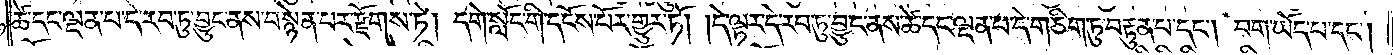ཚེ་དང་ལྡན་པ་དེ་རབ་ཏུ་བྱུང་ནས་བསྙེན་པར་རྫོགས་ཏེ། དགེ་སློང་གི་དངོས་པོར་གྱུར་ཏོ། །དེ་ལྟར་དེ་རབ་ཏུ་བྱུང་ནས་ཚེ་དང་ལྡན་པ་དེ་གཅིག་ཏུ་བརྟུན་པ་དང༌། བག་ཡོད་པ་དང༌།
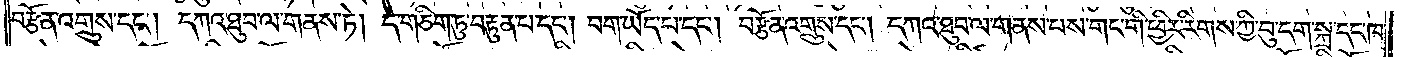བརྩོན་འགྲུས་དང༌། དཀའ་ཐུབ་ལ་གནས་ཏེ། དེ་གཅིག་ཏུ་བརྟུན་པ་དང༌། བག་ཡོད་པ་དང༌། བརྩོན་འགྲུས་དང༌། དཀའ་ཐུབ་ལ་གནས་པས་གང་གི་ཕྱིར་རིགས་ཀྱི་བུ་དག་སྐྲ་དང་ཁ་
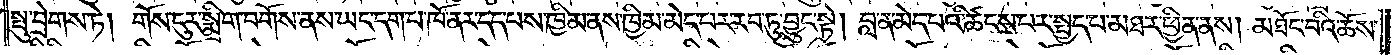སྤུ་བྲེགས་ཏེ། གོས་ངུར་སྨྲིག་བགོས་ནས་ཡང་དག་པ་ཁོ་ནར་དད་པས་ཁྱིམ་ནས་ཁྱིམ་མེད་པར་རབ་ཏུ་བྱུང་སྟེ། བླ་ན་མེད་པའི་ཚངས་པར་སྤྱད་པ་མཐར་ཕྱིན་ནས། མཐོང་བའི་ཆོས་
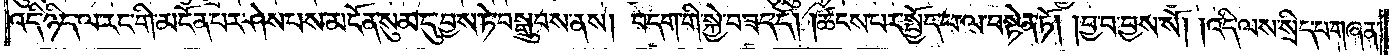འདི་ཉིད་ལ་རང་གི་མངོན་པར་ཤེས་པས་མངོན་སུམ་དུ་བྱས་ཏེ་བསྒྲུབས་ནས། བདག་གི་སྐྱེ་བ་ཟད་དོ། །ཚངས་པར་སྤྱོད་པ་ལ་བསྟེན་ཏོ། །བྱ་བ་བྱས་སོ། །འདི་ལས་སྲིད་པ་གཞན་
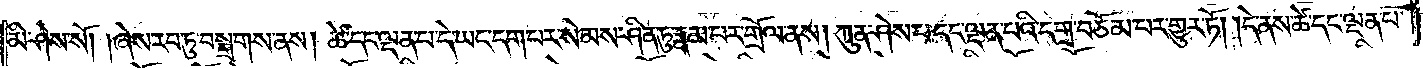མི་ཤེས་སོ། །ཞེས་རབ་ཏུ་བསྒྲགས་ནས། ཚེ་དང་ལྡན་པ་དེ་ཡང་དག་པར་སེམས་ཤིན་ཏུ་རྣམ་པར་གྲོལ་ནས། ཀུན་ཤེས་པ་དང་ལྡན་པའི་དགྲ་བཅོམ་པར་གྱུར་ཏོ། །དེ་ནས་ཚེ་དང་ལྡན་པ་
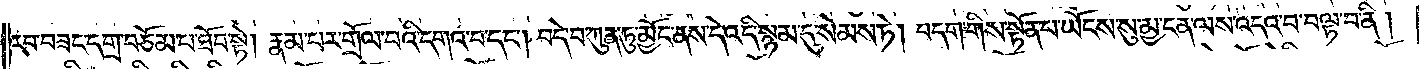རབ་བཟང་དགྲ་བཅོམ་པ་ཐོབ་སྟེ། རྣམ་པར་གྲོལ་བའི་དགའ་བ་དང༌། བདེ་བ་ཀུན་ཏུ་མྱོང་ནས་དེ་འདི་སྙམ་དུ་སེམས་ཏེ། བདག་གིས་སྟོན་པ་ཡོངས་སུ་མྱ་ངན་ལས་འདའ་བ་བལྟ་བ་ནི།
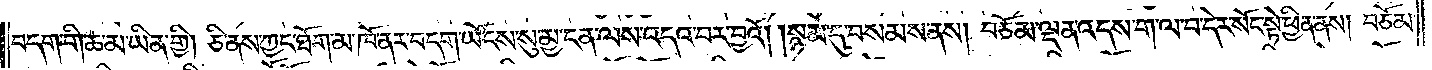བདག་གི་ཆ་མ་ཡིན་གྱི། ཅི་ནས་ཀྱང་ཐོག་མ་ཁོ་ནར་བདག་ཡོངས་སུ་མྱ་ངན་ལས་འདའ་བར་བྱའོ། །སྙམ་དུ་བསམས་ནས། བཅོམ་ལྡན་འདས་ག་ལ་བ་དེར་སོང་སྟེ་ཕྱིན་ནས། བཅོམ་
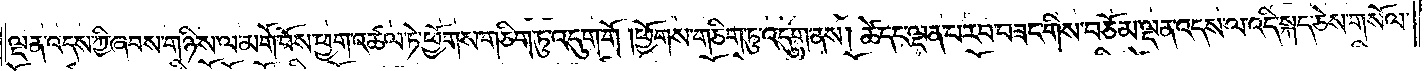ལྡན་འདས་ཀྱི་ཞབས་གཉིས་ལ་མགོ་བོས་ཕྱག་འཚལ་ཏེ་ཕྱོགས་གཅིག་ཏུ་འདུག་གོ །ཕྱོགས་གཅིག་ཏུ་འདུག་ནས། ཚེ་དང་ལྡན་པ་རབ་བཟང་གིས་བཅོམ་ལྡན་འདས་ལ་འདི་སྐད་ཅེས་གསོལ་
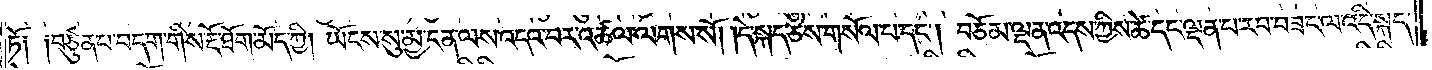ཏོ༑ ༑བཙུན་པ་བདག་གིས་རྔོ་ཐོག་མོད་ཀྱི། ཡོངས་སུ་མྱ་ངན་ལས་འདའ་བར་འཚལ་ལགས་སོ། །དེ་སྐད་ཅེས་གསོལ་པ་དང༌། བཅོམ་ལྡན་འདས་ཀྱིས་ཚེ་དང་ལྡན་པ་རབ་བཟང་ལ་འདི་སྐད་
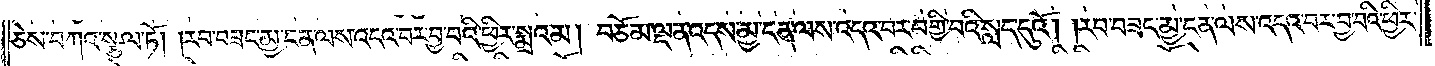ཅེས་བཀའ་སྩལ་ཏོ། །རབ་བཟང་མྱ་ངན་ལས་འདའ་བར་བྱ་བའི་ཕྱིར་སྨྲའམ། བཅོམ་ལྡན་འདས་མྱ་ངན་ལས་འདའ་བར་བགྱི་བའི་སླད་དུའོ། །རབ་བཟང་མྱ་ངན་ལས་འདའ་བར་བྱ་བའི་ཕྱིར་
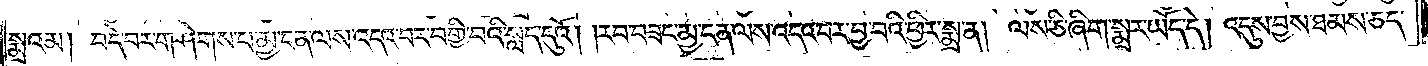སྨྲའམ། བདེ་བར་གཤེགས་པ་མྱ་ངན་ལས་འདའ་བར་བགྱི་བའི་སླད་དུའོ། །རབ་བཟང་མྱ་ངན་ལས་འདའ་བར་བྱ་བའི་ཕྱིར་སྨྲ་ན། ལས་ཅི་ཞིག་སྨྲར་ཡོད་དེ། འདུས་བྱས་ཐམས་ཅད་
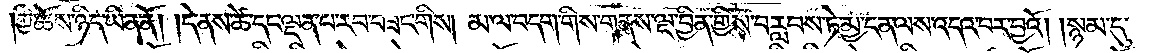ཀྱི་ཆོས་ཉིད་ཡིན་ནོ། །དེ་ནས་ཚེ་དང་ལྡན་པ་རབ་བཟང་གིས། མ་ལ་བདག་གིས་གནས་ལྔ་བྱིན་གྱིས་བརླབས་ཏེ་མྱ་ངན་ལས་འདའ་བར་བྱའོ། །སྙམ་དུ་
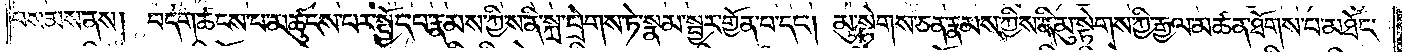བསམས་ནས། བདག་ཚངས་པ་མཚུངས་པར་སྤྱོད་པ་རྣམས་ཀྱིས་ནི་སྐྲ་བྲེགས་ཏེ་སྣམ་སྦྱར་གྱོན་པ་དང༌། མུ་སྟེགས་ཅན་རྣམས་ཀྱིས་ནི་མུ་སྟེགས་ཀྱི་རྒྱལ་མཚན་ཐོགས་པ་མཐོང་
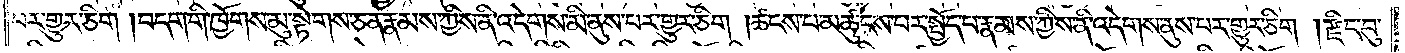བར་གྱུར་ཅིག །བདག་གི་ཁྱོགས་མུ་སྟེགས་ཅན་རྣམས་ཀྱིས་ནི་འདེགས་མི་ནུས་པར་གྱུར་ཅིག །ཚངས་པ་མཚུངས་པར་སྤྱོད་པ་རྣམས་ཀྱིས་ནི་འདེགས་ནུས་པར་གྱུར་ཅིག །རྫིང་བུ་
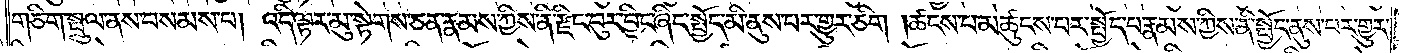གཅིག་སྤྲུལ་ནས་བསམས་པ། འདི་ལྟར་མུ་སྟེགས་ཅན་རྣམས་ཀྱིས་ནི་རྫིང་བུར་བྱིང་ཞིང་སྤྱོད་མི་ནུས་པར་གྱུར་ཅིག །ཚངས་པ་མཚུངས་པར་སྤྱོད་པ་རྣམས་ཀྱིས་ནི་སྤྱོད་ནུས་པར་གྱུར་
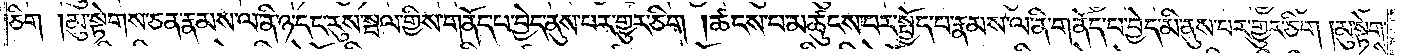ཅིག །མུ་སྟེགས་ཅན་རྣམས་ལ་ནི་ཉ་དང་རུས་སྦལ་གྱིས་གནོད་པ་བྱེད་ནུས་པར་གྱུར་ཅིག །ཚངས་པ་མཚུངས་པར་སྤྱོད་པ་རྣམས་ལ་ནི་གནོད་པ་བྱེད་མི་ནུས་པར་གྱུར་ཅིག །མུ་སྟེགས་
